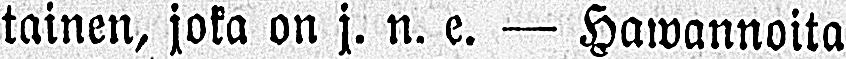tainen, joka on j. n. e. — Hawannoita
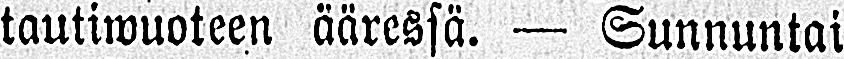tautiwuoteen ääressä. — Sunnuntai
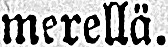merellä.
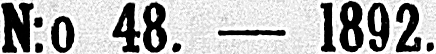N:o 48. — 1892.
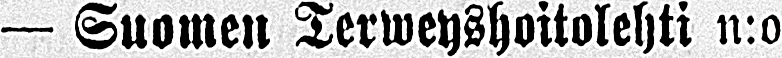— Suomen Terweyshoitolehti n:o
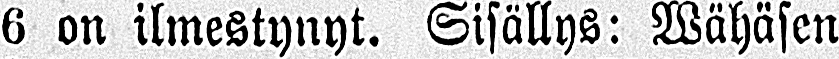6 on ilmestynyt. Sisällys: Wähäsen
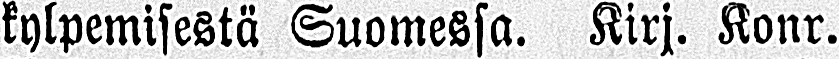kylpemisestä Suomessa. Kirj. Konr.
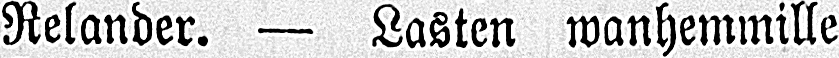Relander. — Lasten wanhemmille
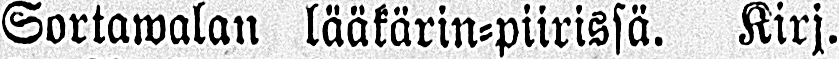Sortawalan lääkärin-piirissä. Kirj.
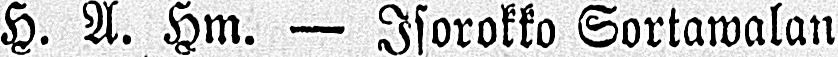H. A. Hm. — Isorokko Sortawalan
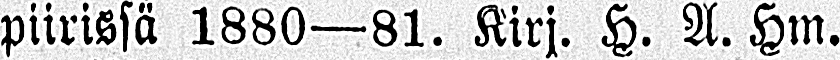piirissä 1880 —81. Kirj. H. A. Hm.
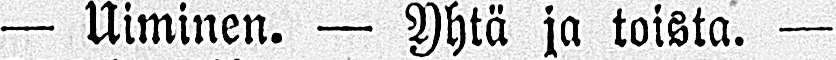— Uiminen. — Yhtä ja toista. —
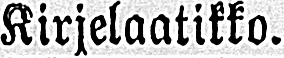Kirjelaatikko.
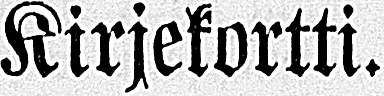Kirjekortti.
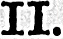II.
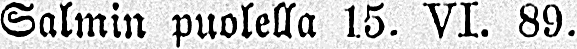Salmin puolella 13. VI. 89.
